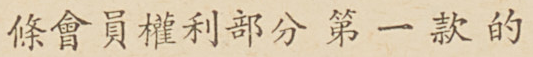條會員權利部分第一款的
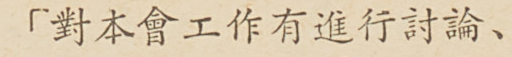「對本會工作有進行討論、
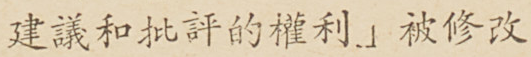建議和批評的權利」被修改
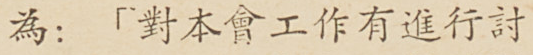為：「對本會工作有進行討
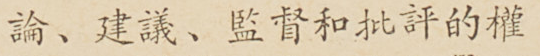論、建議、監督和批評的權
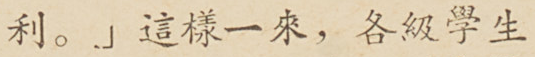利。」這樣一來，各級學生
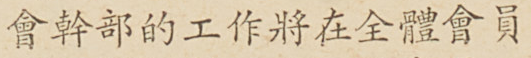會幹部的工作將在全體會員
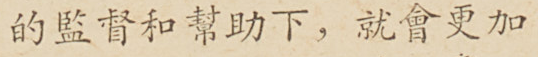的監督和幫助下，就會更加
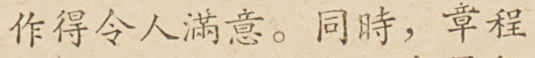作得令人滿意。同時，章程
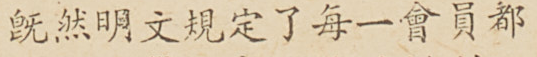旣然明文規定了每一會員都
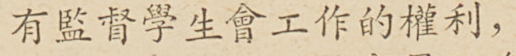有監督學生會工作的權利，
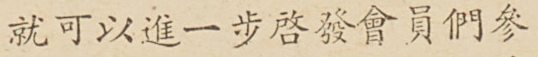就可以進一步啓發會員們參
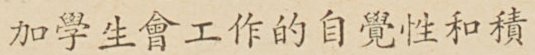加學生會工作的自覺性和積
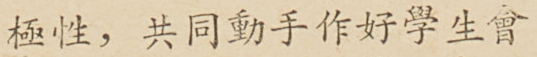極性，共同動手做好學生會
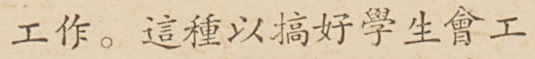工作。這種以搞好學生會工
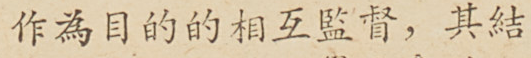作為目的的相互監督，其結
